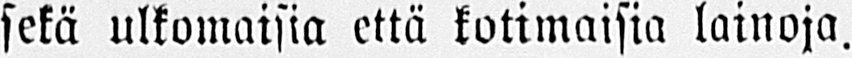sekä ulkomaisia että kotimaisia lainoja.
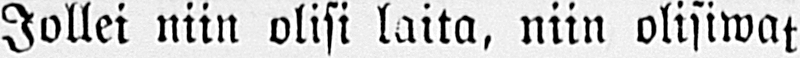Jollei niin olisi laita, niin olisiwat
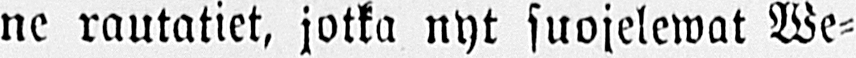ne rautatiet, jotka nyt suojelewat we-
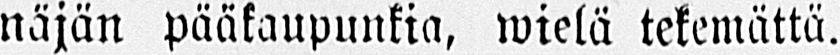näjän pääkaupunkia, wielä tekemättä.
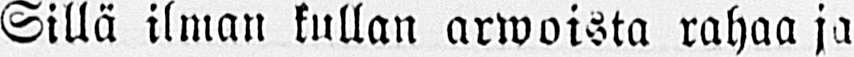Sillä ilman kullan arwoista rahaa ja
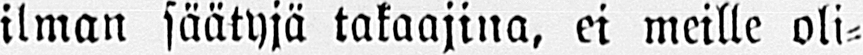ilman säätyjä takaajina, ei meille oli-
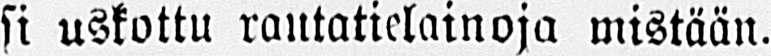si uskottu rautatielainoja mistään.
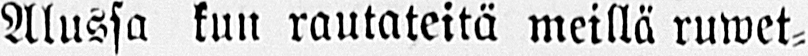Alussa kun rautateitä meillä ruwet-
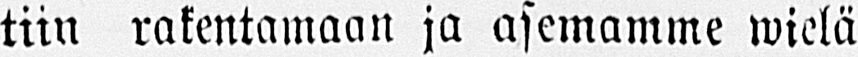tiin rakentamaan ja asemamme wielä
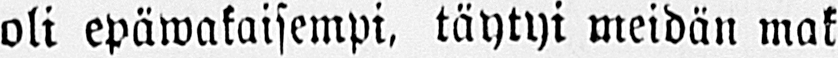oli epäwakaisempi, täytyi meidän mak-
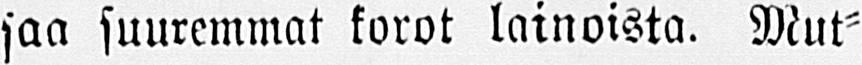saa suuremmat korot lainoista. Mut-
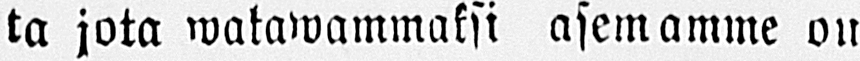ta jota wakawammaksi asemamme on
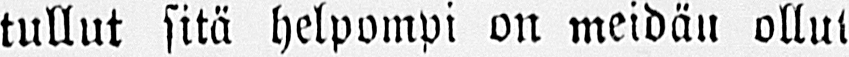tullut sitä helpompi on meidän ollut
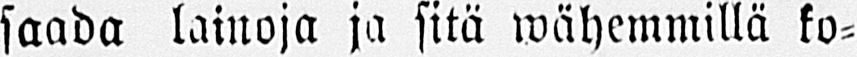saada lainoja ja sitä wähemmillä ko-
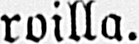roilla.
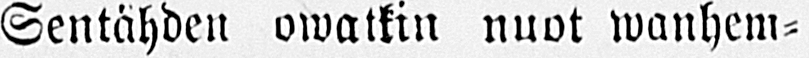Sentähden owatkin nuot wanhem-
